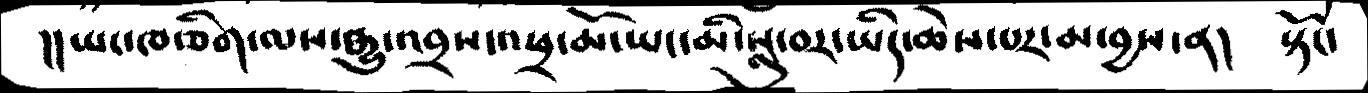།། ཡང་ཁ་ཅིག་ལས་རྒྱུ་འབྲས་འཕྲ་མོ་ཡང་མི་སླུ་བར་ཡིད་ཆེས་པར་མ་བྱས་ན།  སྟོང་
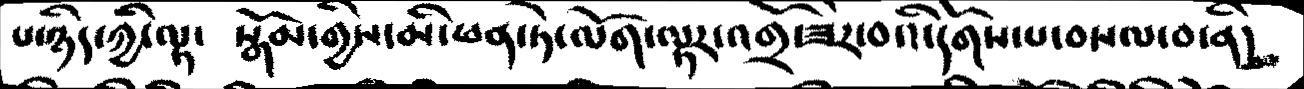པ་ཉིད་ཀྱི་ལྟ་  སྒོམ་གྱིས་མི་ཕན་ཏེ་ལོག་ལྟར་འགྲོ་ཟེར་བའི་དོགས་པ་བསལ་བ་ནི།
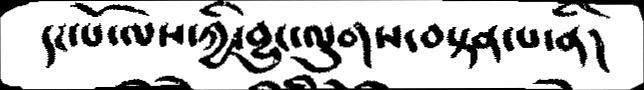དང་པོ་ལས་ཀྱི་བྱུང་ལུགས་བསྟན་པ་ནི།
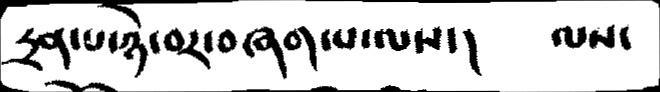དྲན་པ་ཉེ་བར་བཞག་པ་ལས་།  ལས་
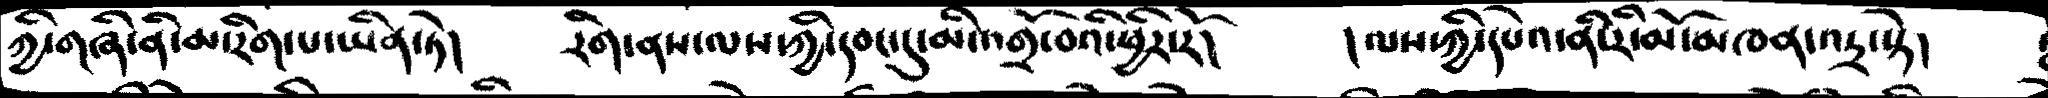ཀྱི་གཞི་ནི་མ་རིག་པ་ཡིན་ཏེ།   རིག་ནས་ལས་ཀྱི་དབང་དུ་མི་འགྲོ་བའི་ཕྱིར་རོ།      །ལས་ཀྱི་དཔེའ་ནི་རི་མོ་མཁན་འདྲ་སྟེ།
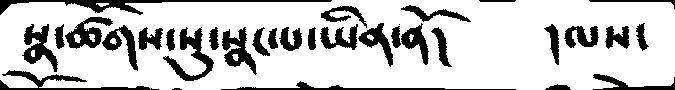སྣ་ཚོགས་སུ་སྣང་པ་ཡིན།    །ལས་
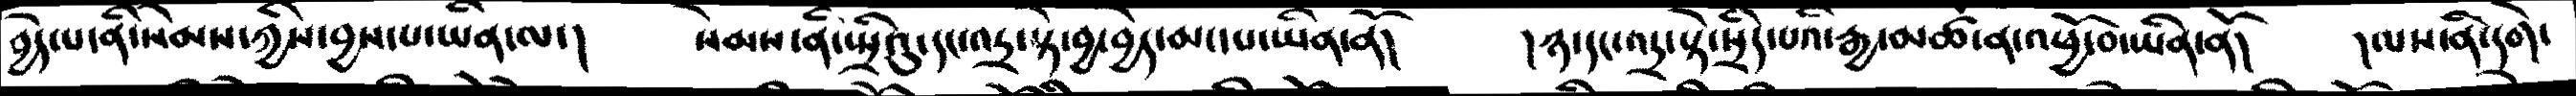བྱེད་པ་ནི་སེམས་ཀྱིས་བྱས་པ་ཡིན་ལ་།     སེམས་ནི་སྤྲིའུ་དང་འདྲ་སྟེ་བྱ་བྱེད་མང་པ་ཡིན་ནོ།      །ཉ་དང་འདྲ་སྟེ་སྲིད་པའི་རྒྱ་མཚོ་ན་འཕོ་བ་ཡིན་ནོ།    །ལས་ནི་དགེ་
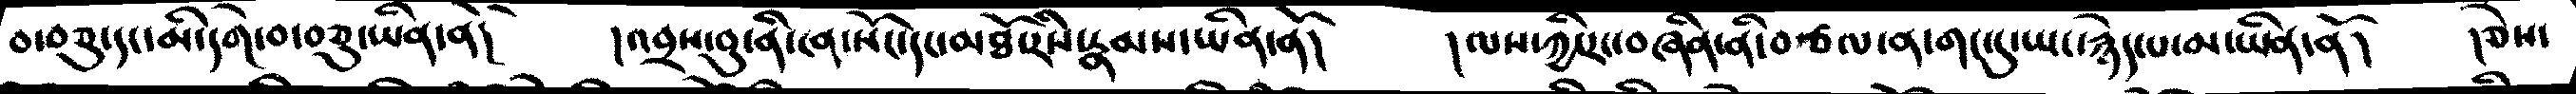བ་བཅུ་དང་མི་དགེ་བ་བཅུ་ཡིན་ནོ།       །འབྲས་བུ་ནི་ངན་སོང་དང་མཐོ་རིས་རྣམས་ཡིན་ནོ།     །ལས་ཀྱི་རང་བཞིན་ནི་བཙལ་ན་གང་དུ་ཡང་རྙེད་པ་མ་ཡིན་ནོ།   །ཅེས་
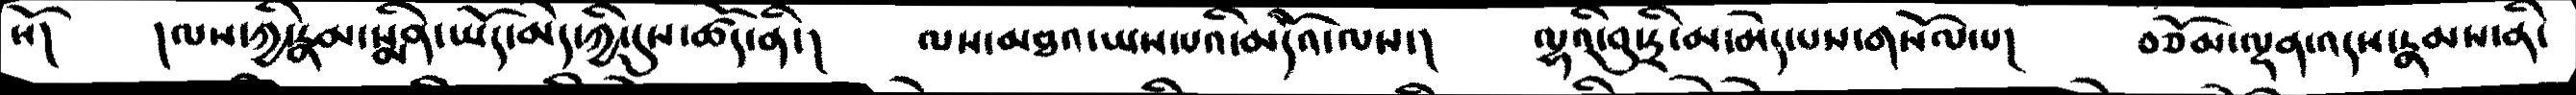སོ།     །ལས་ཀྱི་རྣམ་སྨིན་ཡོད་མེད་ཀྱི་དུས་ཚོད་ནི་།      ལས་མཐའ་ཡས་པའི་མདོའ་ལས་།    ལྷའི་བུ་ཏྲི་མ་མེད་པས་གསོལ་པ།     བཅོམ་ལྡན་འདས་རྣམས་ནི་
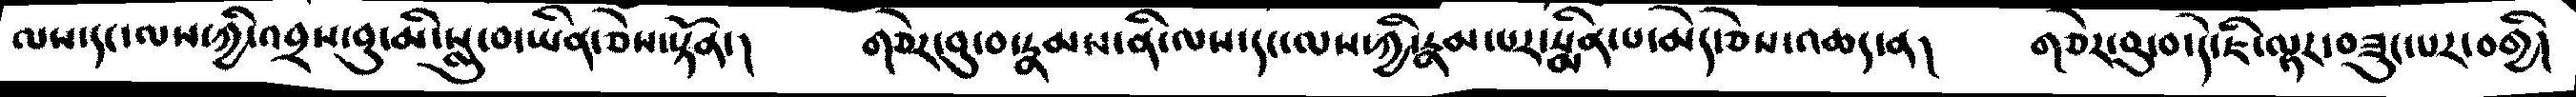ལས་དང་ལས་ཀྱི་འབྲས་བུ་མི་སླུ་བ་ཡིན་ཅེས་སྟོན་།   གཅེར་བུ་བ་རྣམས་ནི་ལས་དང་ལས་ཀྱི་རྣམ་པར་སྨིན་པ་མེད་ཅེས་འཆད་ན།    གཅེར་བུ་བ་དེ་ཇི་ལྟར་བཟུང་པར་བགྱི།
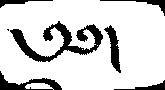༅༅།
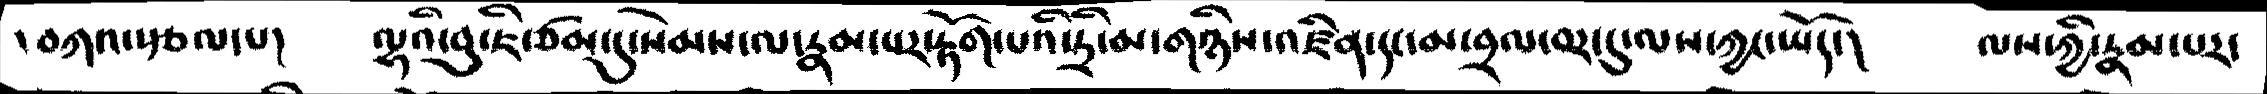། བཀའ་རྩལ་པ།       ལྷའི་བུ་ཇི་ཙམ་དུ་སེམས་ལ་རྣམ་པར་རྟོག་པའི་ཏྲི་མ་གཉིས་འཛིན་དང་མ་བྲལ་བར་དུ་ལས་ཀྱང་ཡོད་།     ལས་ཀྱི་རྣམ་པར་
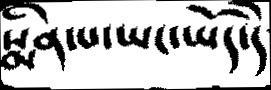སྨིན་པ་ཡང་ཡོད་དེ་
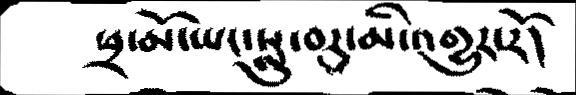ཕྲ་མོ་ཡང་སླུ་བར་མི་འགྱུར་རོ།
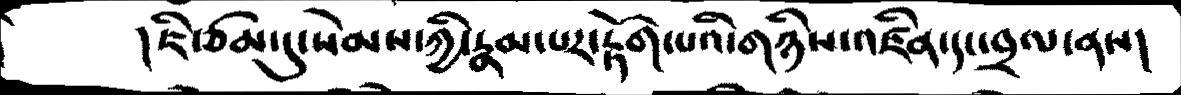།ཇི་ཙམ་དུ་སེམས་ཀྱི་རྣམ་པར་རྟོག་པའི་གཉིས་འཛིན་དང་བྲལ་ནས།
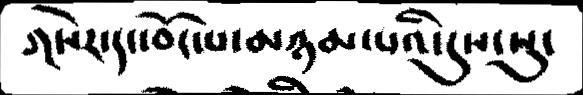གསེར་དང་བོང་བ་མཉམ་པའི་དུས་སུ་
